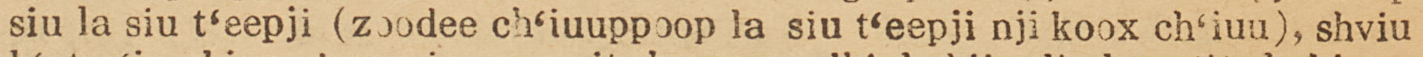siu la siu t'eepji (zoodee ch'iuuppoop la siu t'eepji nji koox ch'iuu), shviu
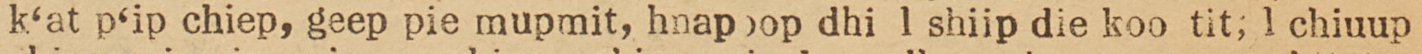k'at p'ip chiep, geep pie mupmit, hnapoop dhi l shiip die koo tit; 1 chiuup
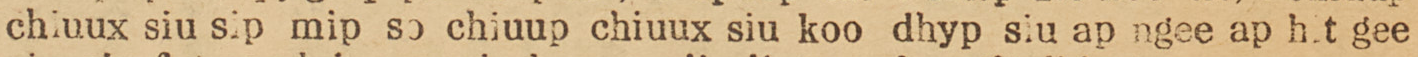chiuux siu sip mip so chiuup chiuux siu koo dhyp siu ap ngee ap hit gee
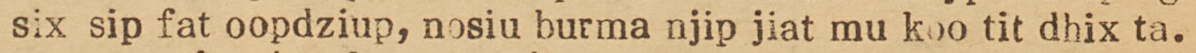six sip fat oopdziup, nosiu burma njip jiat mu koo tit dhix ta.
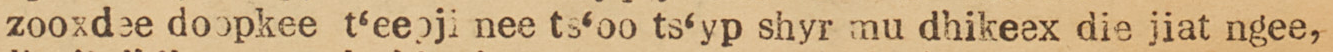zooxdee doopkee t'eepji neee ts'oo ts'yp shyr mu dhikeex die jiat ngee,
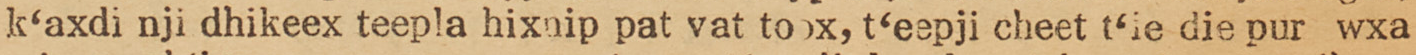k'axdi nji dhikeex teepla hixnip pat vat toox, t'eepji cheet t'ie die pur wxa
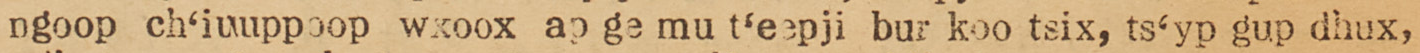ngoop ch'iuuppoop wxoox ap ge mu t'eepji bur koo tsix, ts'yp gup dhux,
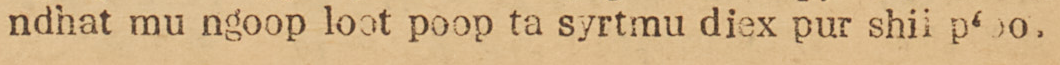ndhat mu ngoop loot poop ta syrtmu diex pur shii p'oo.
